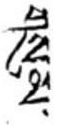གསུམ་
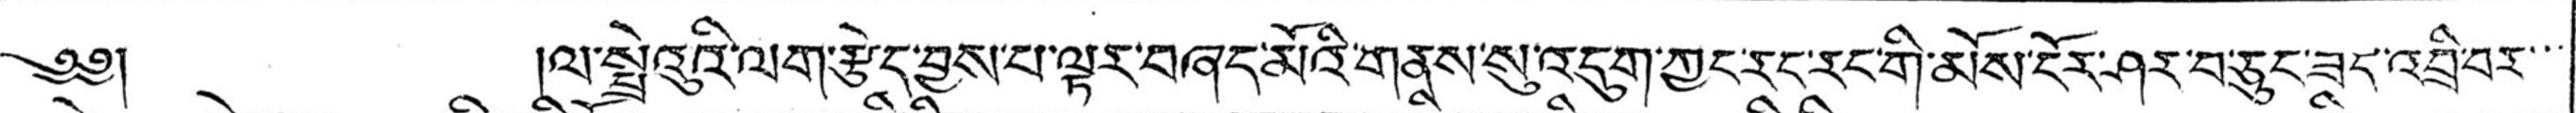༄༅། །ལ་སྤྲེའུའི་ལག་རྩེད་བྱས་པ་ལྟར་བཞད་མོའི་གནས་སུ་འདུག་ཀྱང་རང་རང་གི་མོས་ངོར་ཤར་བ་ཅུང་ཟད་འབྲི་བར་་་
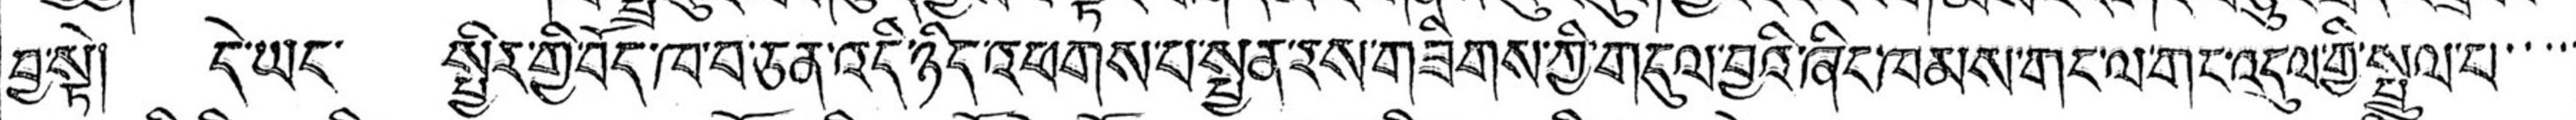བྱ་སྟེ། དེ་ཡང་ སྤྱིར་གྱི་བོད་ཁ་བ་ཅན་འདི་ཉིད་འཕགས་པ་སྤྱན་རས་གཟིགས་ཀྱི་གདུལ་བྱའི་ཞིང་ཁམས་གང་ལ་གང་འདུལ་གྱི་སྤྲུལ་པ་་་་་
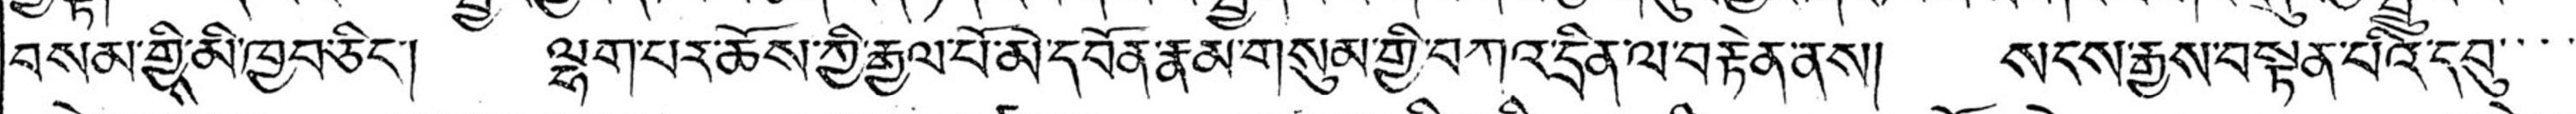བསམ་གྱིས་མི་ཁྱབ་ཅིང་། ལྷག་པར་ཆོས་ཀྱི་རྒྱལ་པོ་མེ་དབོན་རྣམ་གསུམ་གྱི་བཀའ་དྲིན་ལ་བརྟེན་ནས། སངས་རྒྱས་བསྟན་པའི་དབུ་་་་་
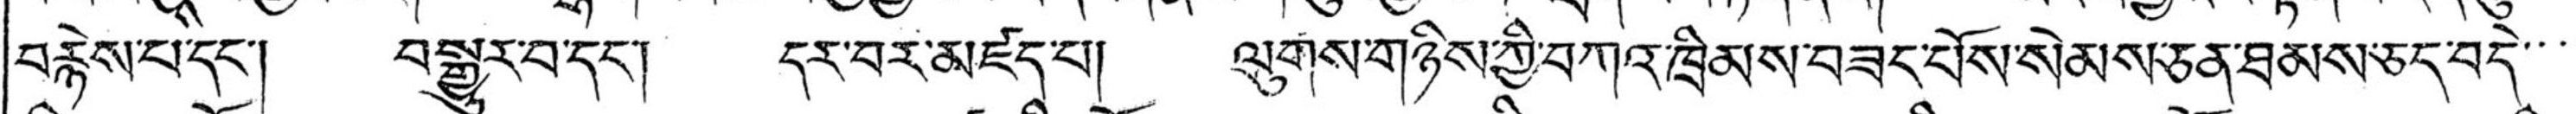བརྙེས་པ་དང་། བསྒྱུར་བ་དང་། དར་བར་མཛད་པ། ལུགས་གཉིས་ཀྱི་བཀའ་ཁྲིམས་བཟང་པོས་སེམས་ཅན་ཐམས་ཅད་བདེ་་་་
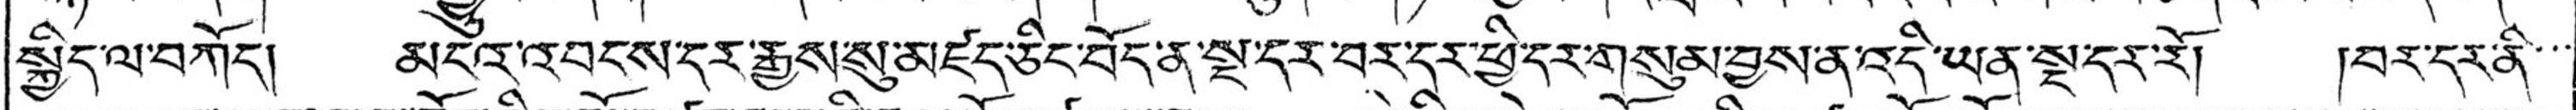སྐྱིད་ལ་བཀོད། མངའ་འབངས་དར་རྒྱས་སུ་མཛད་ཅིང་བོད་ན་སྔ་དར་བར་དར་ཕྱི་དར་གསུམ་བྱས་ན་འདི་ཡན་སྔ་དར་རོ། །བར་དར་ནི་་་
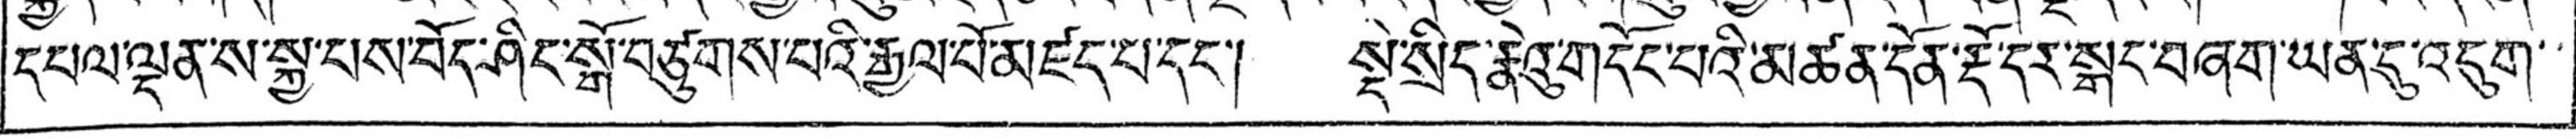དཔལ་ལྡན་ས་སྐྱ་པས་བོད་ཤིང་སྒོ་བཙུགས་པའི་རྒྱལ་པོ་མཛད་པ་དང་། སྡེ་སྲིད་རྣེའུ་གདོང་པའི་མཚན་དོན་རྡོ་དར་སྒང་བཞག་ཡན་དུ་འདུག་་
